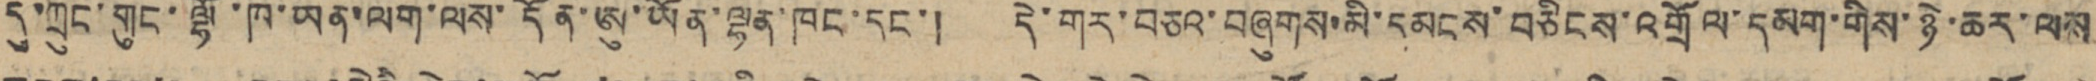དུ་ཀྲུང་གུང་ལྷོ་ཁ་ཡན་ལག་ལས་དོན་ཨུ་ཡོན་ལྷན་ཁང་དང་། དེ་གར་བཅའ་བཞུགས་མི་དམངས་བཅིངས་འགྲོལ་དམག་གིས་ཉེ་ཆར་ལས
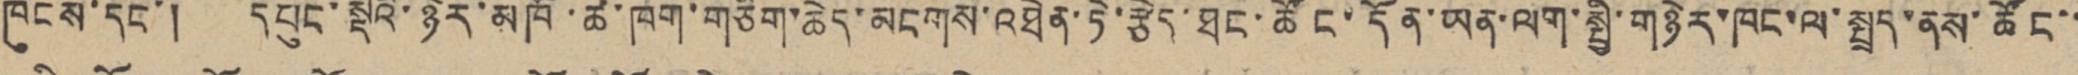ཁུངས་དང་། དཔུང་སྡེའི་ཉེར་མཁོ་ཚ་ཁག་གཅིག་ཆེད་མངགས་འཐེན་ཏེ་རྩེད་ཐང་ཚོང་དོན་ཡན་ལག་སྤྱི་གཉེར་ཁང་ལ་སྤྲད་ནས་ཚོང་་
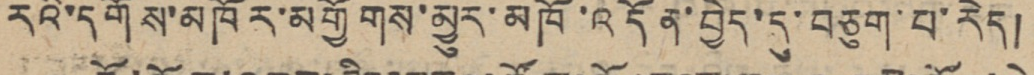རའི་དགོས་མཁོར་མགྱོགས་མྱུར་མཁོ་འདོན་བྱེད་དུ་བཅུག་པ་རེད།
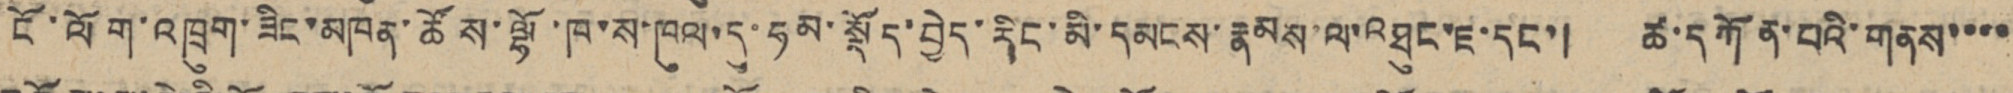ངོ་ལོག་འཁྲུག་ཟིང་མཁན་ཚོས་ལྷོ་ཁ་ས་ཁུལ་དུ་ཧམ་སྡོད་བྱེད་རིང་མི་དམངས་རྣམས་ལ་འཐུང་ཇ་དང་། ཚ་དཀོན་པའི་གནས་་་་
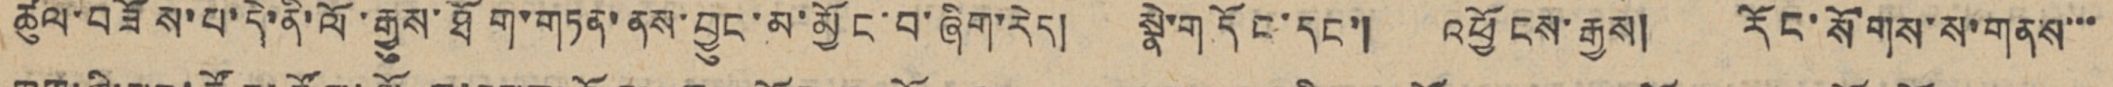ཚུལ་བཟོས་པ་དེ་ནི་ལོ་རྒྱུས་ཐོག་གཏན་ནས་བྱུང་མ་མྱོང་བ་ཞིག་རེད། སྣེ་གདོང་དང་། འཕྱོངས་རྒྱས། རོང་སོགས་ས་གནས་་་
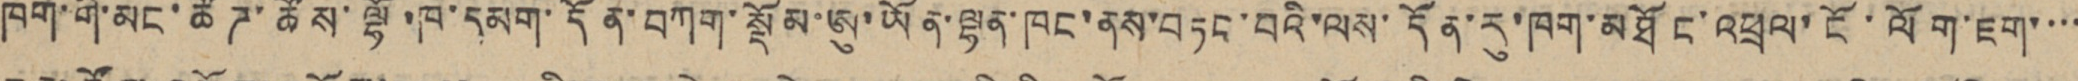ཁག་གི་མང་ཚོཊ་ཚོས་ལྷོ་ཁ་དམག་དོན་བཀག་སྡོམ་ཨུ་ཡོན་ལྷན་ཁང་ནས་བཏང་བའི་ལས་དོན་རུ་ཁག་མཐོང་འཕྲལ་ངོ་ལོག་ཇག་་་་
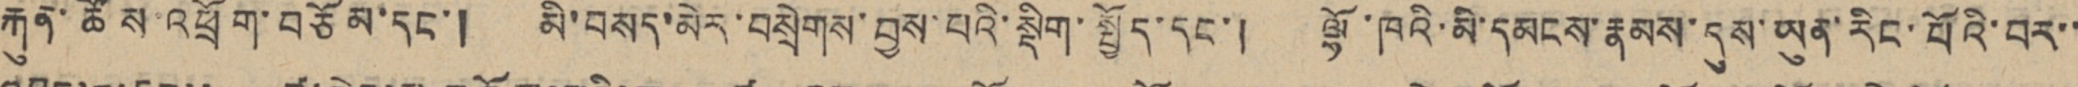རྐུན་ཚོས་འཕྲོག་བཅོམ་དང་། མི་བསད་མེར་བསྲེགས་བྱས་པའི་སྡིག་སྤྱོད་དང་། ལྷོ་ཁའི་མི་དམངས་རྣམས་དུས་ཡུན་རིང་པོའི་བར་་
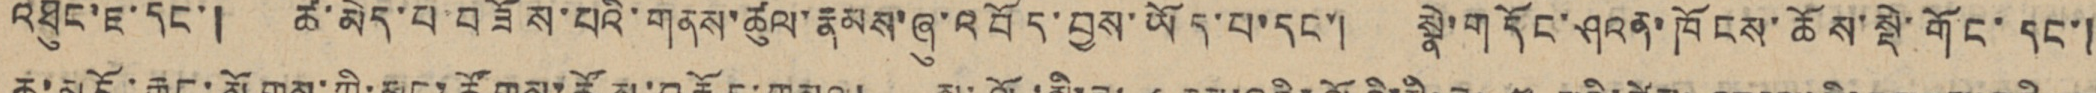འཐུང་ཇ་དང་། ཚ་མེད་པ་བཟོས་པའི་གནས་ཚུལ་རྣམས་ཞུ་འབོད་བྱས་ཡོད་པ་དང་། སྣེ་གདོང་ཤའན་ཁོངས་ཆོས་སྡེ་གོང་དང་།
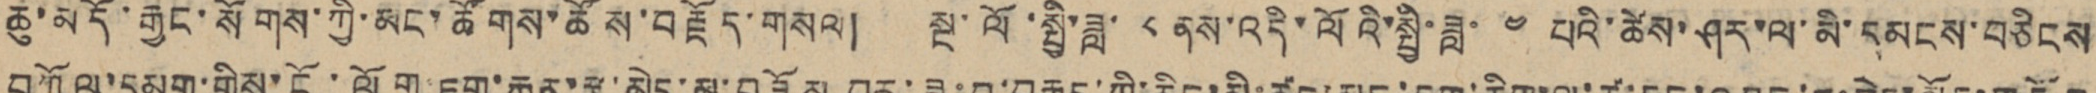ཆུ་མདོ་རྒྱང་སོགས་ཀྱི་མང་ཚོགས་ཚོས་བརྗོད་གསལ། སྔ་ལོ་སྤྱི་ཟླ་ ༨ ནས་འདི་ལོའི་སྤྱི་ཟླ་ ༤ པའི་ཚེས་ཤར་ལ་མི་དམངས་བཅིངས
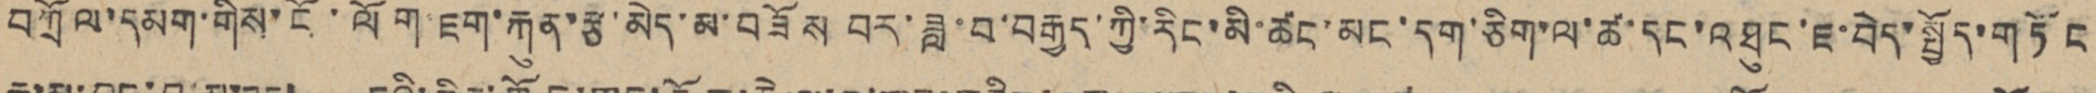བཀྲོལ་དམག་གིས་ངོ་ལོག་ཇག་རྐུན་རྩ་མེད་མ་བཟོས བར་ཟླ་བ་བརྒྱད་ཀྱི་རིང་མི་ཚང་མང་དག་ཅིག་ལ་ཚ་དང་འཐུང་ཇ་བེད་སྤྱོད་གཏོང
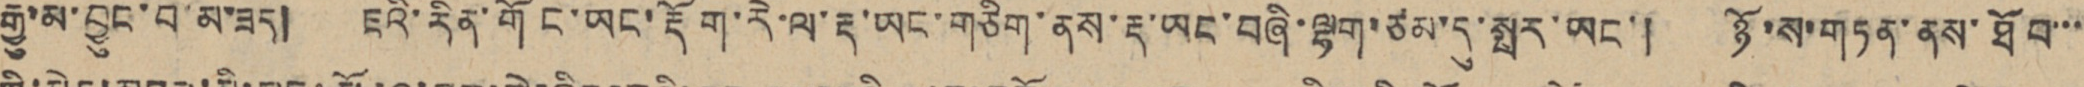རྒྱུ་མ་བྱུང་བ་མ་ཟད། ཇའི་རིན་གོང་ཡང་རྡོག་རེ་ལ་རྡ་ཡང་གཅིག་ནས་རྡ་ཡང་བཞི་ལྷག་ཙམ་དུ་སྤར་ཡང་། ཉོ་ས་གཏན་ནས་ཐོབ་་་
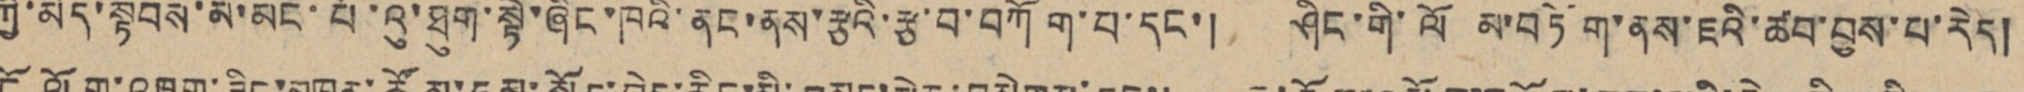ཀྱི་མེད་སྟབས་མི་མང་པོ་འུ་ཐུག་སྟེ་ཞིང་ཁའི་ནང་ནས་རྩའི་རྩ་བ་བཀོག་པ་དང་། ཤིང་གི་ལོ མ་བཏོག་ནས་ཇའི་ཚབ་བྱས་པ་རེད།
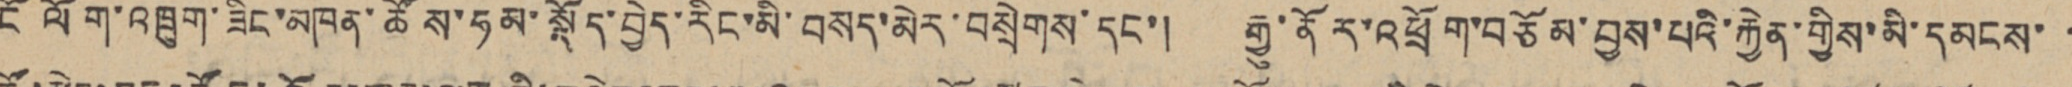ངོ ལོག་འཁྲུག་ཟིང་མཁན་ཚོས་ཧམ་སྡོད་བྱེད་རིང་མི་བསད་མེར་བསྲིགས་དང་། རྒྱུ་ནོར་འཕྲོག་བཅོམ་བྱས་པའི་རྐྱེན་གྱིས་མི་དམངས་ ་
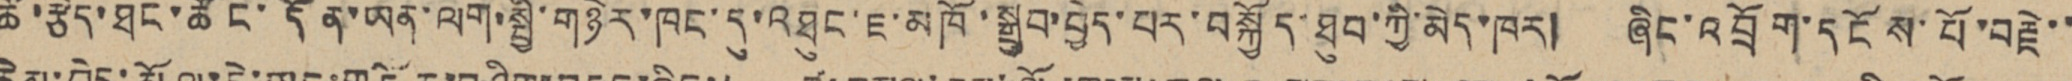ཚོ་རྩེད་ཐང་ཚོང་དོན་ཡན་ལག་སྤྱི་གཉེར་ཁང་དུ་འཐུང་ཇ་མཁོ་སྒྲུབ་བྱེད་པར་བསྐྱོད་ཐུབ་ཀྱི་མེད་ཁར། ཞིང་འབྲོག་དངོས་པོ་བརྗེ་་
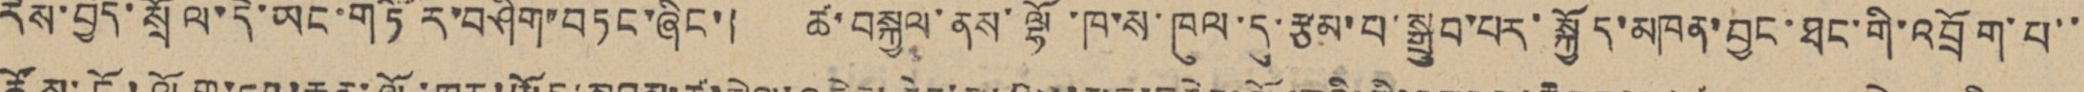རེས་བྱེད་སྲོལ་དེ་ཡང་གཏོར་བཤིག་བཏང་ཞིང་། ཚ་བསྐྱལ་ནས་ལྷོ་ཁ་ས་ཁུལ་དུ་རྩམ་པ་སྒྲུབ་པར་སྐྱོད་མཁན་བྱང་ཐང་གི་འབྲོག་པ་་
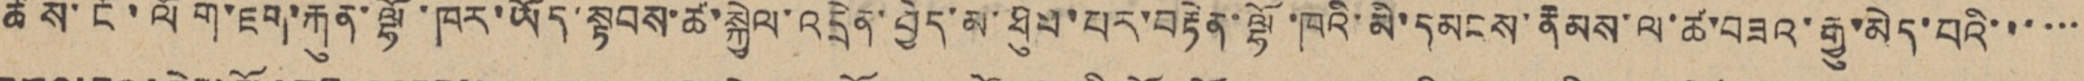ཚོས་ངོ་ལོག་ཇག་རྐུན་ལྷོ་ཁར་ཡོད་སྟབས་ཚ་སྐྱེལ་འདྲེན་བྱེད་མ་ཐུབ་པར་བརྟེན་ལྷོ་ཁའི་མི་དམངས་རྣམས་ལ་ཚ་བཟའ་རྒྱུ་མེད་པའི་་་་་་
